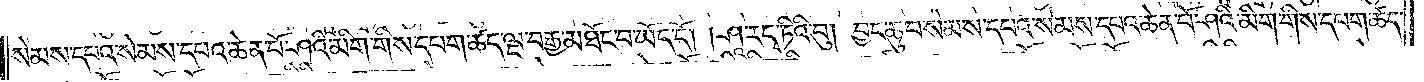སེམས་དཔའ་སེམས་དཔའ་ཆེན་པོ་ཤའི་མིག་གིས་དཔག་ཚད་ལྔ་བརྒྱ་མཐོང་བ་ཡོད་དོ། །ཤཱ་རདྭ་ཏིའི་བུ། བྱང་ཆུབ་སེམས་དཔའ་སེམས་དཔའ་ཆེན་པོ་ཤའི་མིག་གིས་དཔག་ཚད་
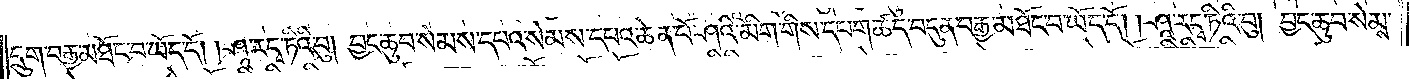དྲུག་བརྒྱ་མཐོང་བ་ཡོད་དོ། །ཤཱ་ར་དྭ་ཏིའི་བུ། བྱང་ཆུབ་སེམས་དཔའ་སེམས་དཔའ་ཆེན་པོ་ཤའི་མིག་གིས་དཔག་ཚད་བདུན་བརྒྱ་མཐོང་བ་ཡོད་དོ། །ཤཱ་ར་དྭ་ཏིའི་བུ། བྱང་ཆུབ་སེམས་
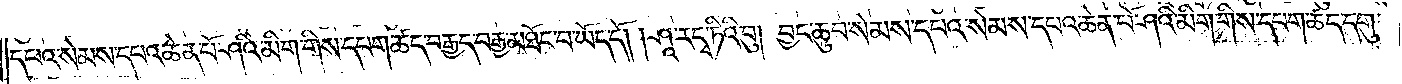དཔའ་སེམས་དཔའ་ཆེན་པོ་ཤའི་མིག་གིས་དཔག་ཚད་བརྒྱད་བརྒྱ་མཐོང་བ་ཡོད་དོ། །ཤཱ་ར་དྭ་ཏིའི་བུ། བྱང་ཆུབ་སེམས་དཔའ་སེམས་དཔའ་ཆེན་པོ་ཤའི་མིག་གིས་དཔག་ཚད་དགུ་
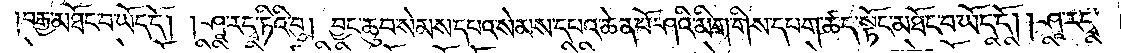བརྒྱ་མཐོང་བ་ཡོད་དོ། །ཤཱ་རདྭ་ཏིའི་བུ། བྱང་ཆུབ་སེམས་དཔའ་སེམས་དཔའ་ཆེན་པོ་ཤའི་མིག་གིས་དཔག་ཚད་སྟོང་མཐོང་བ་ཡོད་དོ། །ཤཱ་རདྭ་
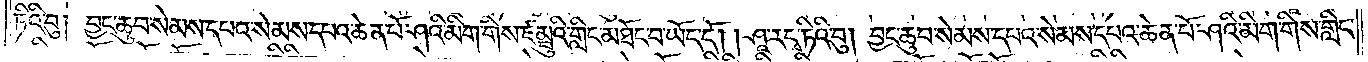ཏིའི་བུ། བྱང་ཆུབ་སེམས་དཔའ་སེམས་དཔའ་ཆེན་པོ་ཤའི་མིག་གིས་ཛམྦུའི་གླིང་མཐོང་བ་ཡོད་དོ། །ཤཱ་རདྭ་ཏིའི་བུ། བྱང་ཆུབ་སེམས་དཔའ་སེམས་དཔའ་ཆེན་པོ་ཤའི་མིག་གིས་གླིང་
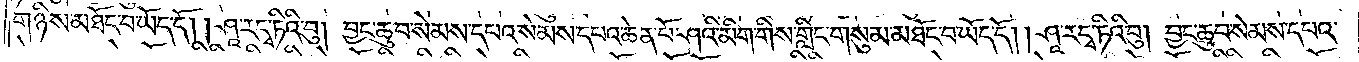གཉིས་མཐོང་བ་ཡོད་དོ། །ཤཱ་རདྭ་ཏིའི་བུ། བྱང་ཆུབ་སེམས་དཔའ་སེམས་དཔའ་ཆེན་པོ་ཤའི་མིག་གིས་གླིང་གསུམ་མཐོང་བ་ཡོད་དོ། །ཤཱ་རདྭ་ཏིའི་བུ། བྱང་ཆུབ་སེམས་དཔའ་
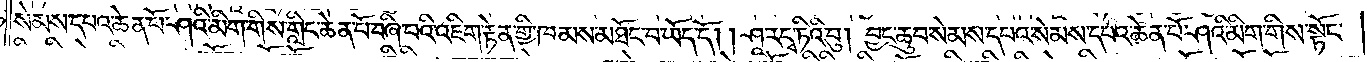སེམས་དཔའ་ཆེན་པོ་ཤའི་མིག་གིས་གླིང་ཆེན་པོ་བཞི་བའི་འཇིག་རྟེན་གྱི་ཁམས་མཐོང་བ་ཡོད་དོ། །ཤཱ་རདྭ་ཏིའི་བུ། བྱང་ཆུབ་སེམས་དཔའ་སེམས་དཔའ་ཆེན་པོ་ཤའི་མིག་གིས་སྟོང་
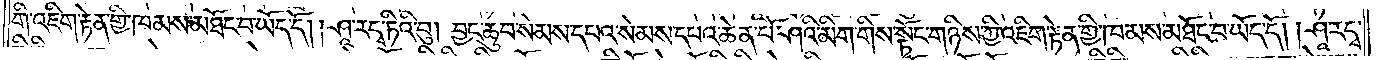གི་འཇིག་རྟེན་གྱི་ཁམས་མཐོང་བ་ཡོད་དོ། །ཤཱ་རདྭ་ཏིའི་བུ། བྱང་ཆུབ་སེམས་དཔའ་སེམས་དཔའ་ཆེན་པོ་ཤའི་མིག་གིས་སྟོང་གཉིས་ཀྱི་འཇིག་རྟེན་གྱི་ཁམས་མཐོང་བ་ཡོད་དོ། །ཤཱ་རདྭ་
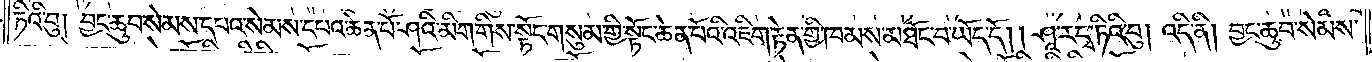ཏིའི་བུ། བྱང་ཆུབ་སེམས་དཔའ་སེམས་དཔའ་ཆེན་པོ་ཤའི་མིག་གིས་སྟོང་གསུམ་གྱི་སྟོང་ཆེན་པོའི་འཇིག་རྟེན་གྱི་ཁམས་མཐོང་བ་ཡོད་དོ། །ཤཱ་ར་དྭ་ཏིའི་བུ། འདི་ནི། བྱང་ཆུབ་སེམས་
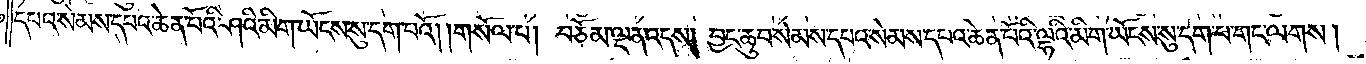དཔའ་སེམས་དཔའ་ཆེན་པོའི་ཤའི་མིག་ཡོངས་སུ་དག་པའོ། །གསོལ་པ། བཅོམ་ལྡན་འདས། བྱང་ཆུབ་སེམས་དཔའ་སེམས་དཔའ་ཆེན་པོའི་ལྷའི་མིག་ཡོངས་སུ་དག་པ་གང་ལགས།
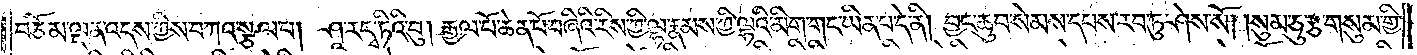བཅོམ་ལྡན་འདས་ཀྱིས་བཀའ་སྩལ་པ། ཤཱ་རདྭ་ཏིའི་བུ། རྒྱལ་པོ་ཆེན་པོ་བཞིའི་རིས་ཀྱི་ལྷ་རྣམས་ཀྱི་ལྷའི་མིག་གང་ཡིན་པ་དེ་ནི། བྱང་ཆུབ་སེམས་དཔས་རབ་ཏུ་ཤེས་སོ། །སུམ་ཅུ་རྩ་གསུམ་གྱི་
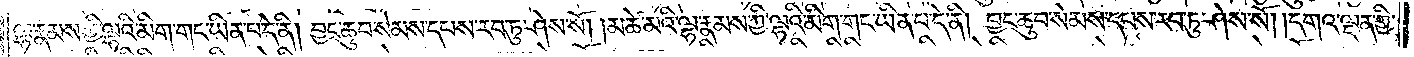ལྷ་རྣམས་ཀྱི་ལྷའི་མིག་གང་ཡིན་པ་དེ་ནི། བྱང་ཆུབ་སེམས་དཔས་རབ་ཏུ་ཤེས་སོ། །མཚེ་མའི་ལྷ་རྣམས་ཀྱི་ལྷའི་མིག་གང་ཡིན་པ་དེ་ནི། བྱང་ཆུབ་སེམས་དཔས་རབ་ཏུ་ཤེས་སོ། །དགའ་ལྡན་གྱི་
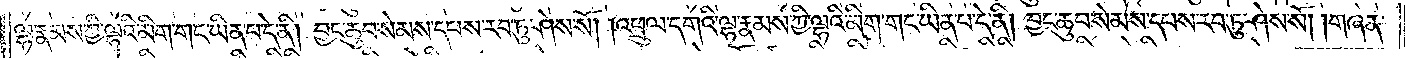ལྷ་རྣམས་ཀྱི་ལྷའི་མིག་གང་ཡིན་པ་དེ་ནི། བྱང་ཆུབ་སེམས་དཔས་རབ་ཏུ་ཤེས་སོ། །འཕྲུལ་དགའི་ལྷ་རྣམས་ཀྱི་ལྷའི་མིག་གང་ཡིན་པ་དེ་ནི། བྱང་ཆུབ་སེམས་དཔས་རབ་ཏུ་ཤེས་སོ། །གཞན་
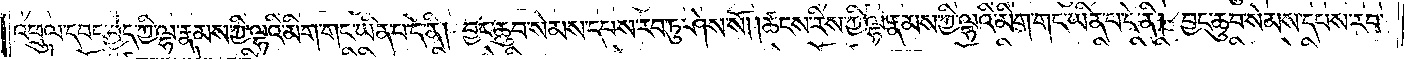འཕྲུལ་དབང་བྱེད་ཀྱི་ལྷ་རྣམས་ཀྱི་ལྷའི་མིག་གང་ཡིན་པ་དེ་ནི། བྱང་ཆུབ་སེམས་དཔས་རབ་ཏུ་ཤེས་སོ། །ཚངས་རིས་ཀྱི་ལྷ་རྣམས་ཀྱི་ལྷའི་མིག་གང་ཡིན་པ་དེ་ནི། བྱང་ཆུབ་སེམས་དཔས་རབ་
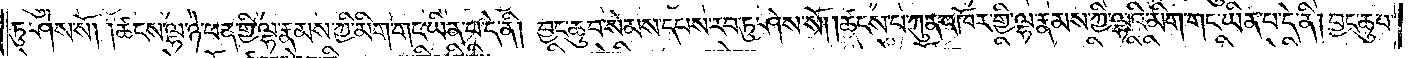ཏུ་ཤེས་སོ། །ཚངས་ལྷ་ཉེ་ཕན་གྱི་ལྷ་རྣམས་ཀྱི་མིག་གང་ཡིན་པ་དེ་ནི། བྱང་ཆུབ་སེམས་དཔས་རབ་ཏུ་ཤེས་སོ། །ཚངས་པ་ཀུན་འཁོར་གྱི་ལྷ་རྣམས་ཀྱི་ལྷའི་མིག་གང་ཡིན་པ་དེ་ནི། བྱང་ཆུབ་
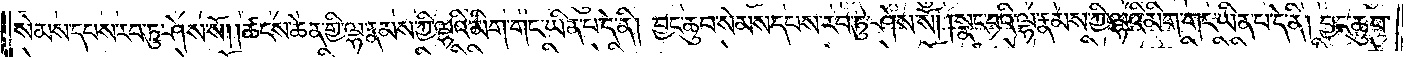སེམས་དཔས་རབ་ཏུ་ཤེས་སོ། །ཚངས་ཆེན་གྱི་ལྷ་རྣམས་ཀྱི་ལྷའི་མིག་གང་ཡིན་པ་དེ་ནི། བྱང་ཆུབ་སེམས་དཔས་རབ་ཏུ་ཤེས་སོ། །སྣང་བའི་ལྷ་རྣམས་ཀྱི་ལྷའི་མིག་གང་ཡིན་པ་དེ་ནི། བྱང་ཆུབ་
